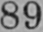89
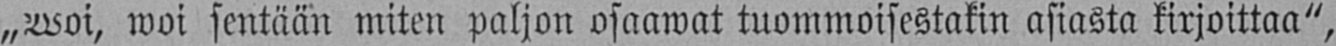„Woi, woi sentään miten paljon osaawat tuommoisestakin asiasta kirjoittaa",
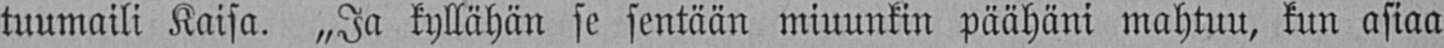tuumaili Kaisa. „Ja kyllähän se sentään minunkin päähäni mahtuu, kun asiaa
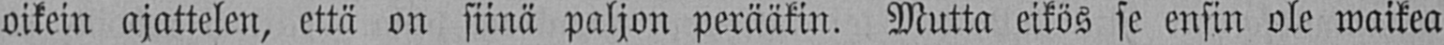oikein ajattelen, että on siinä paljon perääkin. Mutta eikös se ensin ole waikea
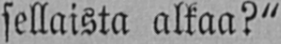sellaista alkaa?"
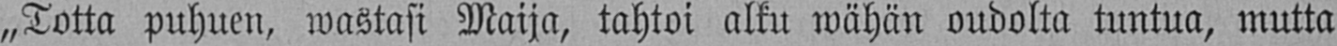„Totta puhuen, wastasi Maija, tahtoi alku wähän oudolta tuntua, mutta
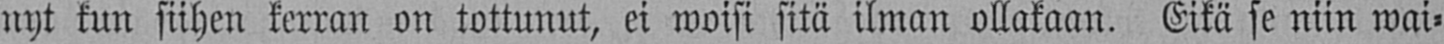nyt kun siihen kerran on tottunut, ei woisi sitä ilman ollakaan. Eikä se niin wai-
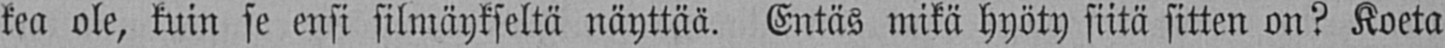kea ole, kuin se ensi silmäykseltä näyttää. Entäs mikä hyöty siitä sitten on? Koeta
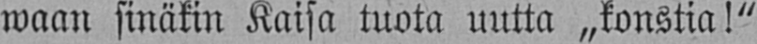waan sinäkin Kaisa tuota uutta „konstia!"
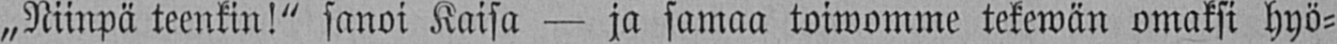„Niinpä teenkin!" sanoi Kaisa - ja samaa toiwomme tekewän omaksi hyö-
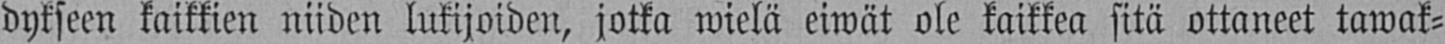dykseen kaikkien niiden lukijoiden, jotka wielä eiwät ole kaikkea sitä ottaneet tawak-
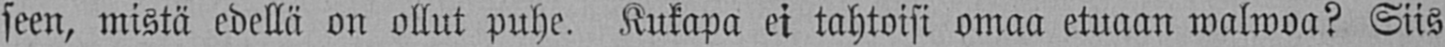seen, mistä edellä on ollut puhe. Kukapa ei tahtoisi omaa etuaan walwoa? Siis
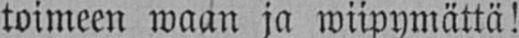toimeen waan ja wiipymättä!
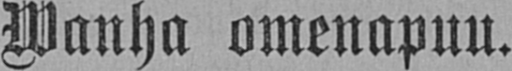Wanha omenapuu.
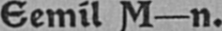Eemil M—n.
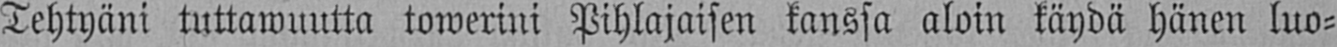Tehtyäni tuttawuutta towerini Pihlajaisen kanssa aloin käydä hänen luo-
